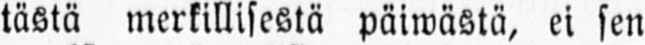tästä merkillisestä päimästä, ei sen
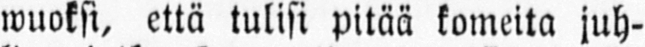wuoksi, että tulisi pitää komeita juh-
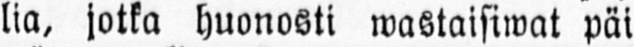lia, jotka huonosti wastaisiwat päi-
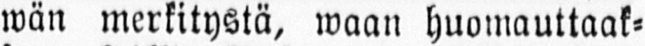wän merkitystä, waan huomauttaak-
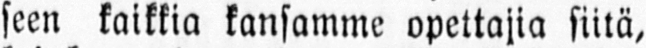seen kaikkia kansamme opettajia siitä,
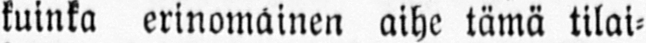kuinka erinomainen aihe tämä tilai-
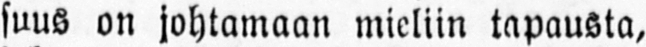suus on johtamaan mieliin tapausta,
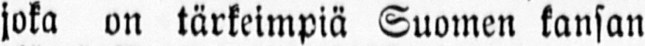joka on tärkeimpiä Suomen kansan
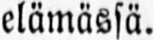elämässä.
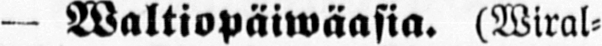— Waltiopäiwäasia. (Wiral-
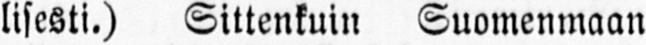lisesti.) Sittenkuin Suomenmaan
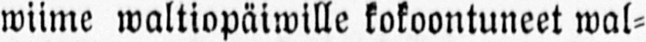wimme waltiopäiwille kokoontuneet wal-
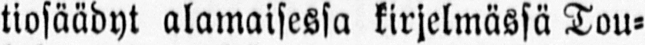tiosäädyt alamaisessa kirjelmässä Tou-
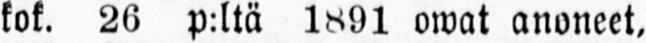kok. 26 p:ltä 1891 owat anoneet,
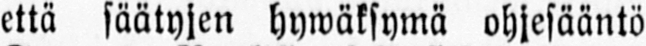että säätyjen hywäksymä ohjesääntö
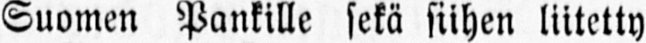Suomen Pankille sekä siihen liitetty
